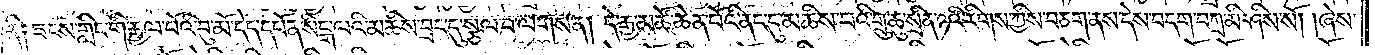ནི༑ ཟངས་གླིང་གི་རྒྱལ་པོའི་བུ་མོ་དེད་དཔོན་སིངྒ་ལའི་མཆིས་བྲང་དུ་སྩལ་པ་ལགས་ན། དེ་རྒྱ་མཚོ་ཆེན་པོའི་ནང་དུ་མཆིས་པའི་གྲུ་ཆུ་སྲིན་ཉའི་རིགས་ཀྱིས་བཅག་ནས་དེས་བདག་བཀྲ་མི་ཤེས་སོ། །ཞེས་
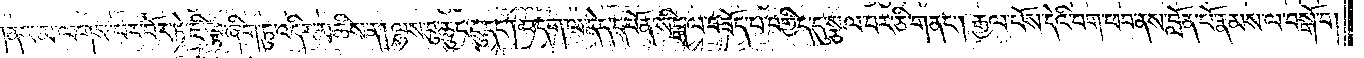གནས་མ་ལགས་པར་པོར་ཏེ་ཇི་ལྟ་ཞིག་ཏུ་འདིར་མཆིས་ན། ལྷས་བུ་ཆུང་ངུ་དང༌། བདག་ལ་དེད་དཔོན་སིངྒ་ལ་བཟོད་པ་བགྱིད་དུ་སྩལ་པར་ཅི་གནང༌། རྒྱལ་པོས་དེའི་བག་ཕབ་ནས་བློན་པོ་རྣམས་ལ་བསྒོ་བ།
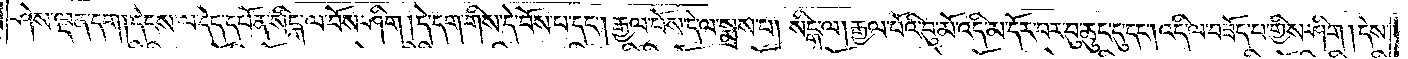ཤེས་ལྡན་དག །དེངས་ལ་དེད་དཔོན་སིངྒ་ལ་བོས་ཤིག །དེ་དག་གིས་དེ་བོས་པ་དང༌། རྒྱལ་པོས་དེ་ལ་སྨྲས་པ། སིངྒ་ལ། རྒྱལ་པོའི་བུ་མོ་འདི་མ་དོར་བར་བུ་ཆུང་དུ་དང༌། འདི་ལ་བཟོད་པ་གྱིས་ཤིག །དེས་
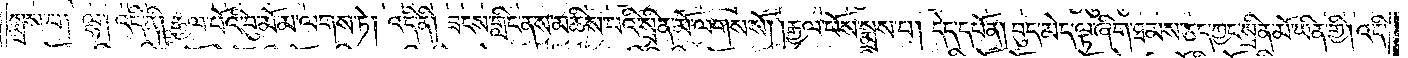སྨྲས་པ། ལྷ། འདི་ནི། རྒྱལ་པོའི་བུ་མོ་མ་ལགས་ཏེ། འདི་ནི། ཟངས་གླིང་ནས་མཆིས་པའི་སྲིན་མོ་ལགས་སོ། །རྒྱལ་པོས་སྨྲས་པ། དེད་དཔོན། བུད་མེད་ལྟ་ཞིག་ཐམས་ཅད་ཀྱང་སྲིན་མོ་ཡིན་གྱི། འདི་
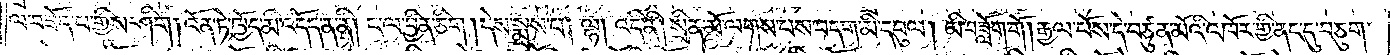ལ་བཟོད་པ་གྱིས་ཤིག །འོན་ཏེ་ཁྱོད་མི་འདོད་ན་ནི། ང་ལ་བྱིན་ཅིག །དེས་སྨྲས་པ། ལྷ། འདི་ནི། སྲིན་མོ་ལགས་པས་བདག་མི་དབུལ། མི་བཟློག་གོ །རྒྱལ་པོས་དེ་བཙུན་མོའི་འཁོར་གྱི་ནང་དུ་བཅུག་
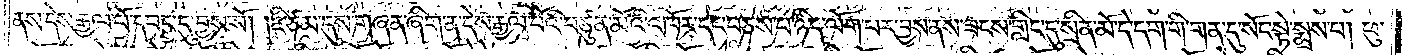ནས་དེས་རྒྱལ་པོ་དབང་དུ་བྱས་སོ། །ཇི་ཙམ་དུས་གཞན་ཞིག་ན་དེས་རྒྱལ་པོའི་བཙུན་མོའི་འཁོར་དང་བཅས་པ་ཉིད་ལོག་པར་བྱས་ནས་ཟངས་གླིང་དུ་སྲིན་མོ་དེ་དག་གི་གན་དུ་སོང་སྟེ་སྨྲས་པ། ཕུ་
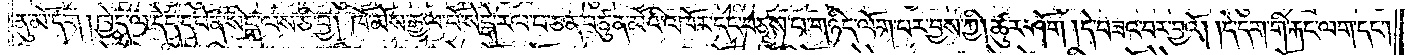ནུ་མོ་དག །ཁྱེད་ལ་དེད་དཔོན་སིངྒ་ལས་ཅི་བྱ། ཁོ་མོས་རྒྱལ་པོ་སེངྒེ་རལ་པ་ཅན་བཙུན་མོའི་འཁོར་དང་བཅས་པ་གཉིད་ལོག་པར་བྱས་ཀྱི། ཚུར་ཤོག །དེ་བཟའ་བར་བྱའོ། །དེ་དག་གི་རྐང་ལག་དང༌།
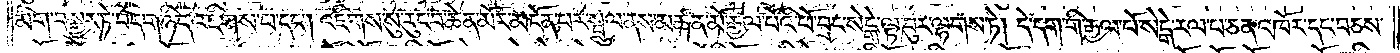མིག་བསྒྱུར་ཏེ་བདག་ཉིད་འཇིགས་པ་དང༌། འཇིགས་སུ་རུང་བ་ཆེན་མོར་མངོན་པར་སྤྲུལ་ནས་མཚན་མོ་རྒྱལ་པོའི་ཕོ་བྲང་སེངྒེ་ལྟ་བུར་ལྷགས་ཏེ། དེ་དག་གི་རྒྱལ་པོ་སེངྒེ་རལ་པ་ཅན་འཁོར་དང་བཅས་
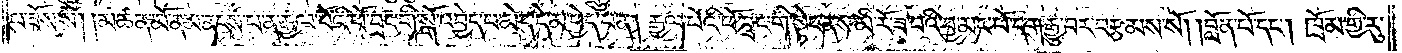པ་ཟོས་སོ། །མཚན་མོ་ནམ་ནངས་པ་ན་རྒྱལ་པོའི་ཕོ་བྲང་གི་སྒོ་འབྱེད་པ་མེད་དེ་མ་ཕྱེད་པ་ན། རྒྱལ་པོའི་ཕོ་བྲང་གི་སྟེང་ནས་མི་རོ་ཟ་བའི་བྱ་མང་པོ་དག་རྒྱུ་བར་བརྩམས་སོ། །བློན་པོ་དང༌། ཁྲོམ་གྱི་རུ་
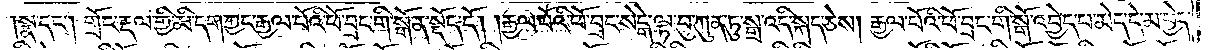སྣ་དང༌། གྲོང་རྡལ་གྱི་མི་དག་ཀྱང་རྒྱལ་པོའི་ཕོ་བྲང་གི་སྒོ་ན་སྡོད་དོ། །རྒྱལ་པོའི་ཕོ་བྲང་སེངྒེ་ལྟ་བུ་ཀུན་ཏུ་སྒྲ་འདི་སྐད་ཅེས། རྒྱལ་པོའི་ཕོ་བྲང་གི་སྒོ་འབྱེད་པ་མེད་དེ་མ་ཕྱེད་
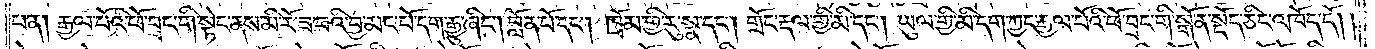པ་ན། རྒྱལ་པོའི་ཕོ་བྲང་གི་སྟེང་ནས་མི་རོ་ཟ་བའི་བྱ་མང་པོ་དག་རྒྱུ་ཞིང༌། བློན་པོ་དང༌། ཁྲོམ་གྱི་རུ་སྣ་དང༌། གྲོང་རྡལ་གྱི་མི་དང༌། ཡུལ་གྱི་མི་དག་ཀྱང་རྒྱལ་པོའི་ཕོ་བྲང་གི་སྒོ་ན་སྡོད་ཅིང་འཁོད་དོ༎
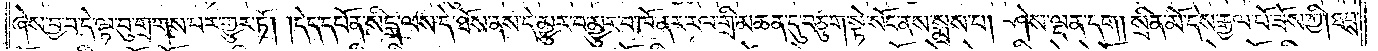ཞེས་བྱ་བ་དེ་ལྟ་བུ་གྲགས་པར་གྱུར་ཏོ། །དེད་དཔོན་སིངྒ་ལས་དེ་ཐོས་ནས་དེ་མྱུར་བ་མྱུར་བ་ཁོ་ནར་རལ་གྲི་མཚན་དུ་བཅུག་སྟེ་སོང་ནས་སྨྲས་པ། ཤེས་ལྡན་དག །སྲིན་མོ་དེས་རྒྱལ་པོ་ཟོས་ཀྱི། ཐབས་
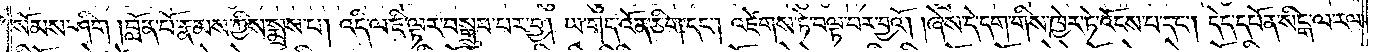སོམས་ཤིག །བློན་པོ་རྣམས་ཀྱིས་སྨྲས་པ། འདི་ལ་ཇི་ལྟར་བསྒྲུབ་པར་བྱ། ཡ་གད་འོན་ཅིག་དང༌། འཛེགས་ཏེ་བལྟ་བར་བྱའོ། །ཞེས་དེ་དག་གིས་ཁྱེར་ཏེ་འོངས་པ་དང༌། དེད་དཔོན་སིངྒ་ལ་རལ་
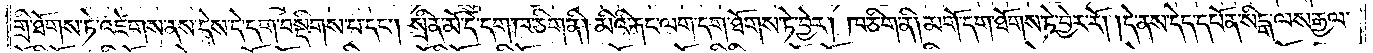གྲི་ཐོགས་ཏེ་འཛེགས་ནས་དེས་དེ་དག་བསྡིགས་པ་དང༌། སྲིན་མོ་དེ་དག་ཁ་ཅིག་ནི། མིའི་རྐང་ལག་དག་ཐོགས་ཏེ་བྱེར། ཁ་ཅིག་ནི། མགོ་དག་ཐོགས་ཏེ་བྱེར་རོ། །དེ་ནས་དེད་དཔོན་སིངྒ་ལས་རྒྱལ་
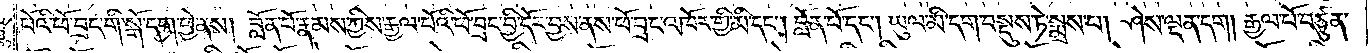པོའི་ཕོ་བྲང་གི་སྒོ་དག་ཕྱེ་ནས། བློན་པོ་རྣམས་ཀྱིས་རྒྱལ་པོའི་ཕོ་བྲང་བྱི་དོར་བྱས་ནས་ཕོ་བྲང་འཁོར་གྱི་མི་དང༌། བློན་པོ་དང༌། ཡུལ་མི་དག་བསྡུས་ཏེ་སྨྲས་པ། ཤེས་ལྡན་དག །རྒྱལ་པོ་བཙུན་
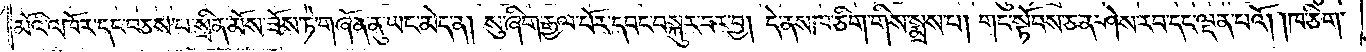མོའི་འཁོར་དང་བཅས་པ་སྲིན་མོས་ཟོས་ཏེ་གཞོན་ནུ་ཡང་མེད་ན། སུ་ཞིག་རྒྱལ་པོར་དབང་བསྐུར་བར་བྱ། དེ་ནས་ཁ་ཅིག་གིས་སྨྲས་པ། གང་སྟོབས་ཅན་ཤེས་རབ་དང་ལྡན་པའོ། །ཁ་ཅིག་
